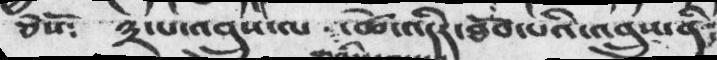ཅེསོ༴  ༣་པ་འབྲུས་ལ་    ཚེ་འདིར་ཐོབ་པའི་འབྲུས་ནི་
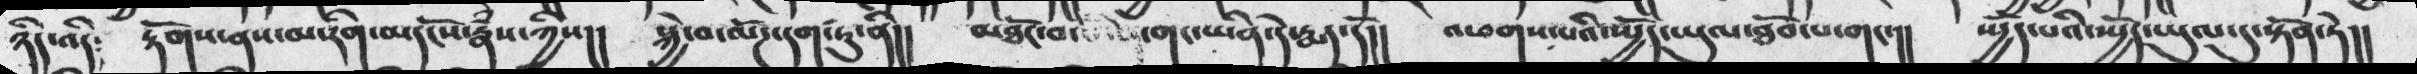ཉིད་འདི༴   རྟོགས་ནས་མ་རིག་པ་དངོས་རྣཾས་ཀྱིས།།  སྐྱེ་བ་ལོཌ་དག་ཏུ་ནི།།   མཐོང་བ་   ་གང་ཡིན་དེ་རྨད་དོ།།   འཕགས་པའི་སྤྱོད་ཡུལ་ཐོབ་པ་གང་།།   སྤྱོད་པའི་སྤྱོད་ཡུལ་དུ་སྟོན་ཏེ།།
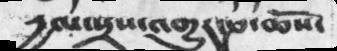དྱལ་སྲས་འགྱུར་ཎ་ཆོས་
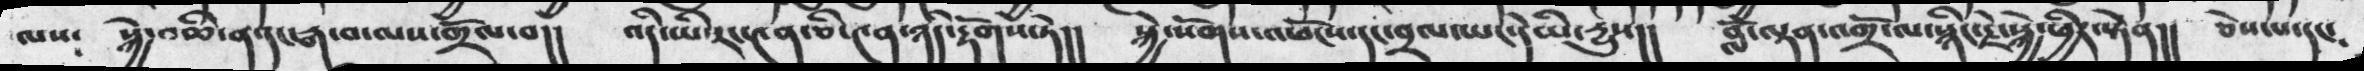ལས༴  སྐྱེ་འཆི་ན་དང་རྒ་བ་ལས་གྲོལ་བ།།  འདི་ཡི་རང་༤ན་ཉིད་རྟོགས་ཏེ།།་ སྐྱེ་སོགས་འཕོངས་དང་བྲལ་ཡང་དེ་ཡི་དྱུས།།  བློ་ལྡན་འགྲོ་ལ་སྙིང་རྗེ་སྐྱེ་ཕྱིར་སྟེན།། ཅེས་པ་དང༴
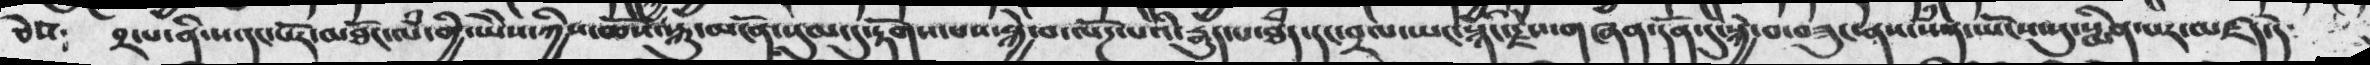ཅེསོ༴  ༢་པ་ནི་ས་དང་པོར་མཐོང་ལཾ་གྱི་ཡེེས་ཀྱིས་ཆོས་སྐུ་མངོན་སུམ་དུ་རྟོགས་པས་སྐྱེ་བ་ལོཌ་པའི་རྒུད་པ་ཐྃད་དང་བྲལ་ཡང་སྙིང་རྗེས་གཞན་དོན་དུ་སྐྱེ་བ་བཟུང་ནས་སེཾན་ཡོངས་སུ་སྨིན་པར་མཛད་དེ
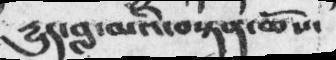དྱུད་བླ་མའི་བསྟན་ཆོས་
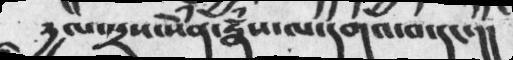དྱལ་སྲས་སེཾན་རྣྃས་ལ་དགའ་བ་དང་།།
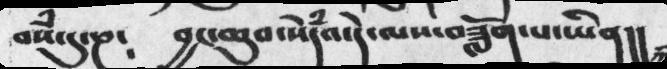བསཾ་དུ་ཎ༴  བྱང་ཆུབ་སེཾདའ་དེ་ལས་བཟློག་པ་ཡིན།།
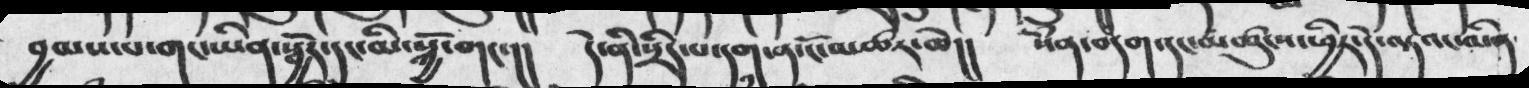བྱམས་པ་གང་ཡིན་སྦྱོར་དང་མི་སྐྱོ་གང་།།  དེ་ནི་སྲིད་པ་དག་ན་ངོ་མཚར་ཆེ།།   སེཾན་བདག་དང་མཚུངས་ཕྱིར་དེ་ལྟའང་མིན་
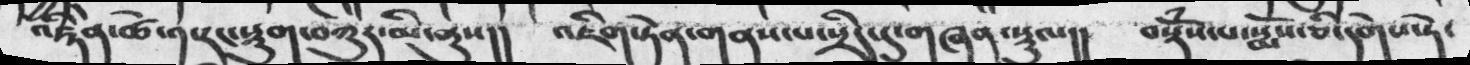འཇྟིེན་ཚེ་༡་རང་སྡུག་བཀུར་མི་ནུས།།   འཇིག་ཏེན་གནས་པ་སྲིད་དུ་གཞན་སྟུལ།།   བསྡོཾས་པ་སྨོས་ཅི་དགེས་ཏེ་
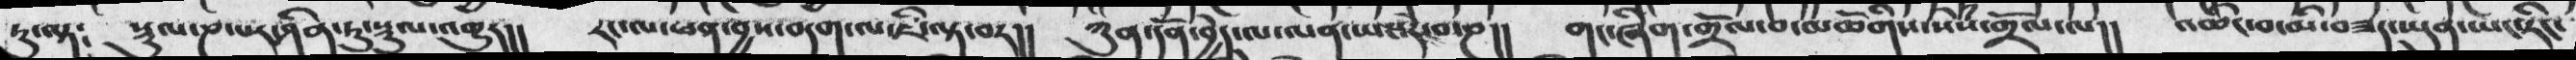ཏུ་ལྟ༴   སྡུལ་ཎ་པར་ཤིན་ཏུ་སྡུལ་འགྱུར།།    རང་ལ་ཕན་བྱས་བདག་ལ་ཇི་ལྟ་བར།།  ཀུན་དོན་བྱེད་ལ་ལན་ཡང་རེ་བ་ཎ།།   གང་ཞིག་གྲོལ་བ་མཆོགིས་སེཾས་གྲོལ་ལ།།  འཆིང་བ་མི་བཟད་ཡུན་ཡང་རིང་
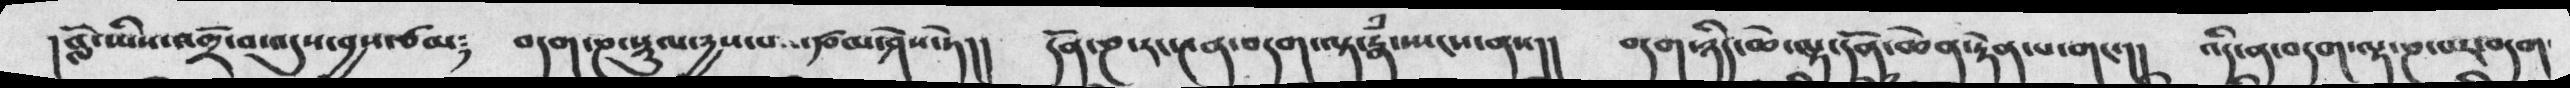། བློ་ཡིས་འགྲོ་བ་འདུས་བྱས་ཙམ༴   བདག་ཎ་སྡུལ་དྱས་པ་རྩམ་ཤེས་ཏེ།།   དོན་ཎ་རང་༤ན་བདག་ལ་རྣཾ་ཡངས་ནས།།   བདག་ཉིད་ཆེ་ལྟ་དོན་ཆེན་རྟེན་པ་གང་།།   འདི་ན་བདག་ལྟ་ཎ་པར་བདག་
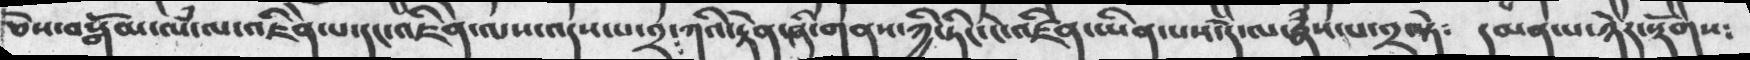ཅེས་བསྒོམ་ལཾ་ལ་འཇིེན་པ་དང་འཇིེན་ལས་འདས་པ་༢༴ཀའི་རྟེན་ཞི་གནས་ཀྱི་ཏིང་ངེ་འཛིན་ཡིན་པས་དེ་ལ་རྣཾས་པ་༢་ཏ་ེ༴  དམན་པ་ཉེར་ལྡོགས༴
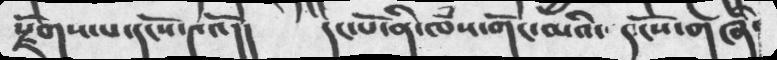སྗོགས་པ་དངོས་༤འོ།།   དང་པོ་ནི་ཁཾས་གོང་མའི་དངོས་གཞི༴
